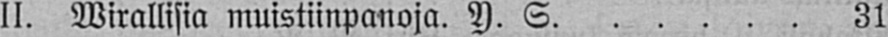II. Wirallisia muistiinpanoja. Y. S. 31
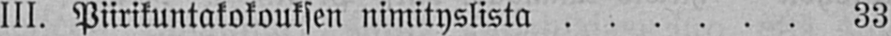III. Piirikuntakokouksen nimityslista 33
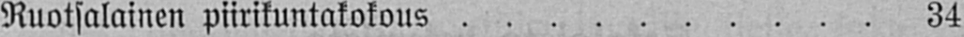Ruotsalainen piirikuntakokous 34
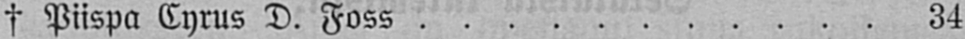† Piispa Cyrus D. Foss 34
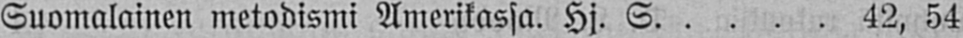Suomalainen metodismi Amerikassa. Hj. S. 42, 54
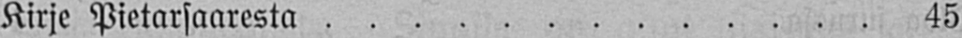Kirje Pietarsaaresta 45
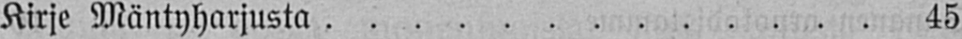Kirje Mäntyharjusta 45
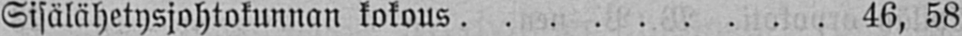Sisälähetysjohtokunnan kokous 46, 58
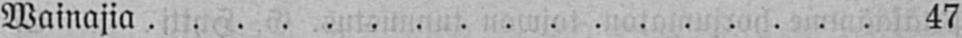Wainajia 47
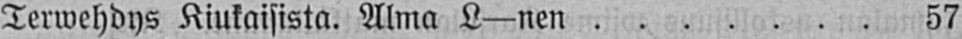Terwehdys Kiukaisista. Alma L—nen 57
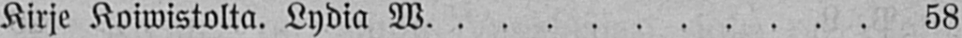Kirje Koiwistolta. Lydia W. 58
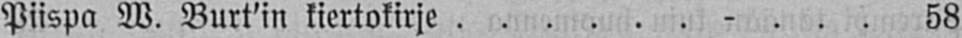Piispa W. Burt'in kiertokirje 58
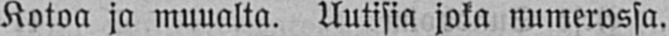Kotoa ja muualta. Uutisia joka numerossa.
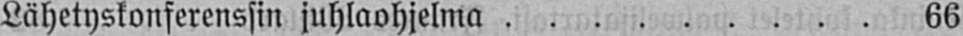Lähetyskonferenssin juhlaohjelma 66
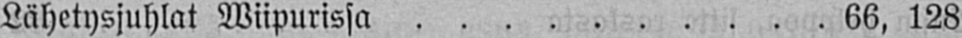Lähetysjuhlat Wiipurissa 66, 128
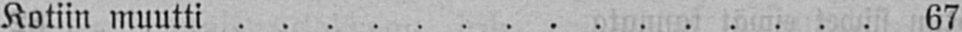Kotiin muutti 67
